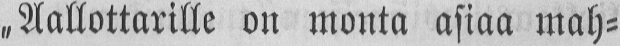„Aallottarille on monta asiaa mah-
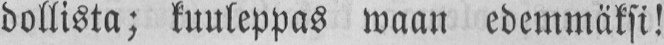dollista; kuuleppas waan edemmäksi!
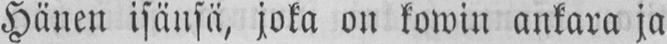Hänen isänsä, joka on kowin ankara ja
